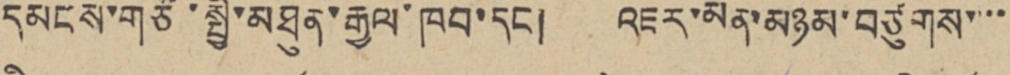དམངས་གཙོ་སྤྱི་མཐུན་རྒྱལ་ཁབ་དང། འཇར་མན་མཉམ་བཙུགས་་་་
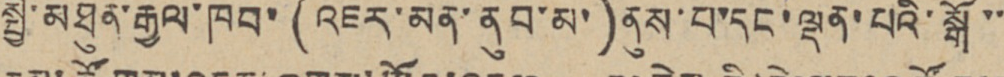སྤྱི་མཐུན་རྒྱལ་ཁབ་(འཇར་མན་ནུབ་མ་)ནུས་པ་དང་ལྡན་པའི་སྒོ་་
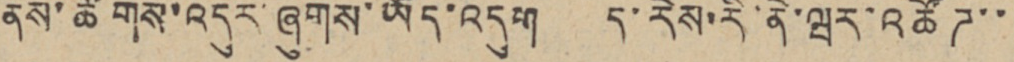ནས་ཚོགས་འདུར་ཞུགས་ཡོད་འདུག ད་རེས་རི་ནེ་ཝར་འཚོཊ་་
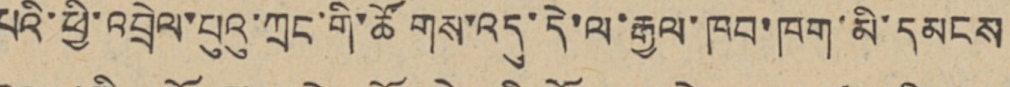པའི་ཕྱི་འབྲེལ་པུའུ་ཀྲང་གི་ཚོགས་འདུ་དེ་ལ་རྒྱལ་ཁབ་ཁག་མི་དམངས
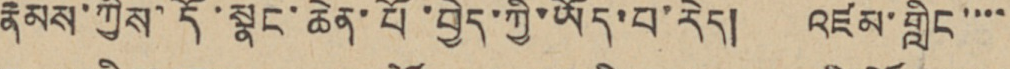རྣམས་ཀྱིས་དོ་སྣང་ཆེན་པོ་བྱེད་ཀྱི་ཡོད་པ་རེད། འཛམ་གླིང་་་་
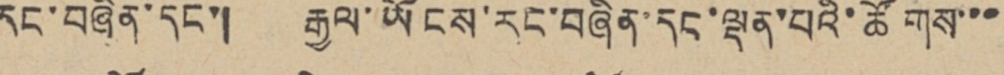རང་བཞིན་དང་། རྒྱལ་ཡོངས་རང་བཞིན་དང་ལྡན་པའི་ཚོགས་་་
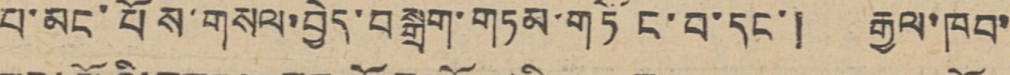པ་མང་པོས་གསལ་བྱེད་བསྒྲག་གཏམ་གཏོང་བ་དང་། རྒྱལ་ཁབ་
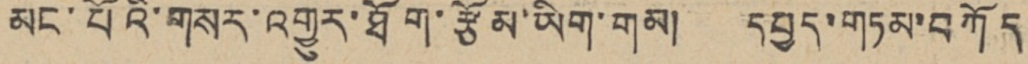མང་པོའི་གསར་འགྱུར་ཐོག་རྩོམ་ཡིག་གམ། དཔྱད་གཏམ་བཀོད
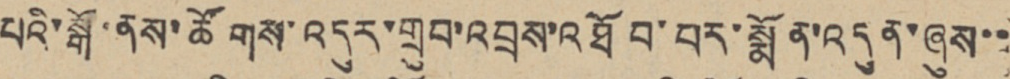པའི་སྒོ་ནས་ཚོགས་འདུར་གྲུབ་འབྲས་འཐོབ་པར་སྨོན་འདུན་ཞུས་་
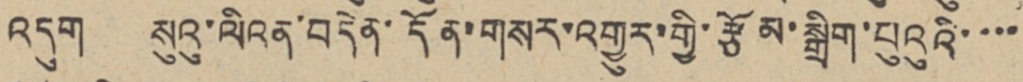འདུག སུའུ་ལིའན་བདེན་དོན་གསར་འགྱུར་གྱི་རྩོམ་སྒྲིག་པུའུའི་་་་
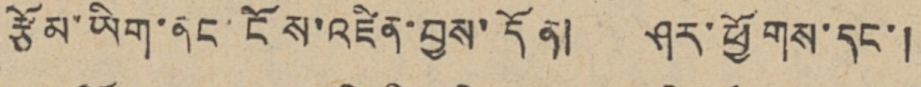རྩོམ་ཡིག་ནང་ངོས་འཛིན་བྱས་དོན། ཤར་ཕྱོགས་དང་།
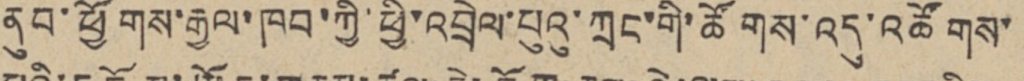ནུབ་ཕྱོགས་རྒྱལ་ཁབ་ཀྱི་ཕྱི་འབྲེལ་པུའུ་ཀྲང་གི་ཚོགས་འདུ་འཚོགས་
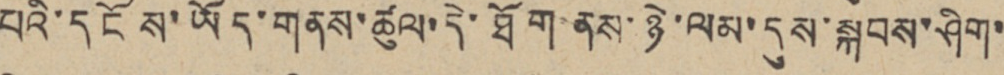པའི་དངོས་ཡོད་གནས་ཚུལ་དེ་ཐོག་ནས་ཉེ་ལམ་དུས་སྐབས་ཤིག་
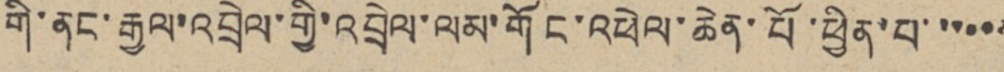གི་ནང་རྒྱལ་འབྲེལ་གྱི་འབྲེལ་ལམ་གོང་འཕེལ་ཆེན་པོ་ཕྱིན་པ་་་་་་
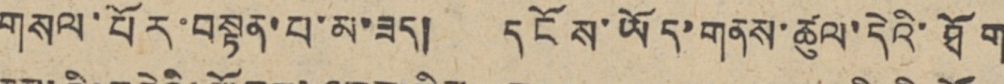གསལ་པོར་བསྟན་པ་མ་ཟད། དངོས་ཡོད་གནས་ཚུལ་དེའི་ཐོག
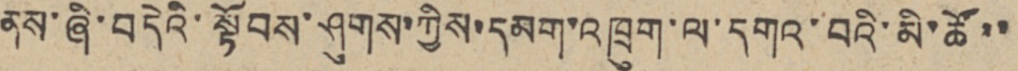ནས་ཞི་བདེའི་སྟོབས་ཤུགས་ཀྱིས་དམག་འཁྲུག་ལ་དགའ་བའི་མི་ཚོ་་
